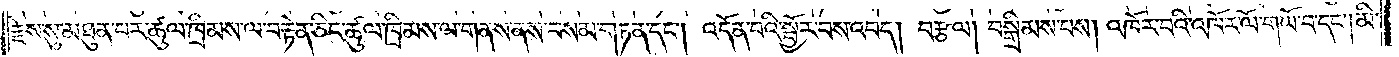རྗེས་སུ་མཐུན་པར་ཚུལ་ཁྲིམས་ལ་བརྟེན་ཅིང་ཚུལ་ཁྲིམས་ལ་བརྟེན་ཅིང་ཚུལ་ཁྲིམས་ལ་གནས་ནས་བསམ་གཏན་དང༌། འདོན་པའི་སྦྱོར་བས་འབད། བརྩལ། བསྒྲིམས་བས། འཁོར་བའི་འཁོར་ལོ་གཡོ་བ་དང༌། མི་
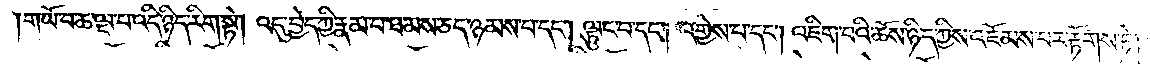གཡོ་བ་ཆ་ལྔ་པ་འདི་ཉིད་རིག་སྟེ། འདུ་བྱེད་ཀྱི་རྣམ་པ་ཐམས་ཅད་ཉམས་པ་དང༌། ལྟུང་བ་དང༌། འགྱེས་པ་དང༌། འཇིག་པའི་ཆོས་ཉིད་ཀྱིས་འཇོམས་པར་རྟོགས་ཏེ།
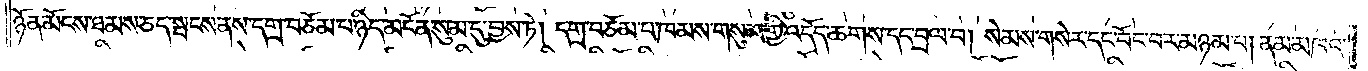ཉོན་མོངས་ཐམས་ཅད་སྤངས་ནས་དགྲ་བཅོམ་པ་ཉིད་མངོན་སུམ་དུ་བྱས་ཏེ། དགྲ་བཅོམ་པ་ཁམས་གསུམ་གྱི་འདོད་ཆགས་དང་བྲལ་བ། སེམས་གསེར་དང་བོང་བར་མཉམ་པ། ནམ་མཁའ་
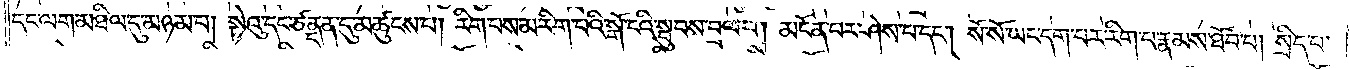དང་ལག་མཐིལ་དུ་མཉམ་པ། སྟེའུ་དང་ཙནྡན་དུ་མཚུངས་པ། རིག་པས་མ་རིག་པའི་སྒོ་ངའི་སྦུབས་བྲལ་བ། མངོན་པར་ཤེས་པ་དང༌། སོ་སོ་ཡང་དག་པར་རིག་པ་རྣམས་ཐོབ་པ། སྲིད་པ་
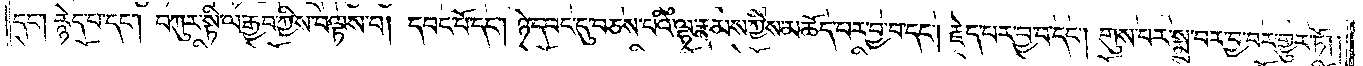དང༌། རྙེད་པ་དང༌། བཀུར་སྟི་ལ་རྒྱབ་ཀྱིས་བལྟས་པ། དབང་པོ་དང༌། ཉེ་དབང་དུ་བཅས་པའི་ལྷ་རྣམས་ཀྱིས་མཆོད་པར་བྱ་བ་དང༌། རྗེད་པར་བྱ་བ་དང༌། གུས་པར་སྨྲ་བར་བྱ་བར་གྱུར་ཏོ། །
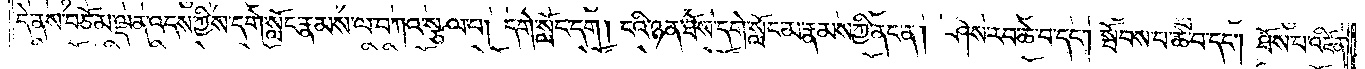དེ་ནས་བཅོམ་ལྡན་འདས་ཀྱིས་དགེ་སློང་རྣམས་ལ་བཀའ་སྩལ་པ། དགེ་སློང་དག། ངའི་ཉན་ཐོས་དགེ་སློང་མ་རྣམས་ཀྱི་ནང་ན། ཤེས་རབ་ཆེ་བ་དང༌། སྤོབས་པ་ཆེ་བ་དང༌། ཐོས་པ་འཛིན་
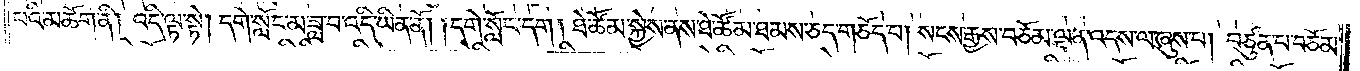པའི་མཆོག་ནི། འདི་ལྟ་སྟེ། དགེ་སློང་མ་ཟླ་བ་འདི་ཡིན་ནོ། །དགེ་སློང་དག། ཐེ་ཚོམ་སྐྱེས་ནས་ཐེ་ཚོམ་ཐམས་ཅད་གཅོད་པ། སངས་རྒྱས་བཅོམ་ལྡན་འདས་ལ་ཞུས་པ། བཙུན་པ་བཅོམ་
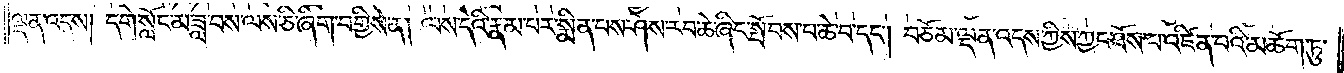ལྡན་འདས། དགེ་སློང་མ་ཟླ་བས་ལས་ཅི་ཞིག་བགྱིས་ན། ལས་དེའི་རྣམ་པར་སྨིན་པས་ཤེས་རབ་ཆེ་ཞིང་སྤོབས་བ་ཆེ་བ་དང༌། བཅོམ་ལྡན་འདས་ཀྱིས་ཀྱང་ཐོས་པ་འཛིན་པའི་མཆོག་ཏུ་
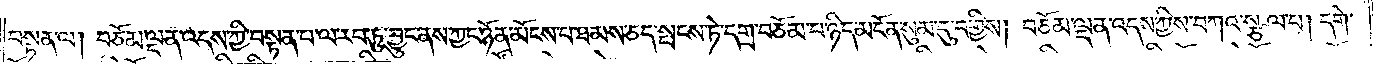བསྟན་ལ། བཅོམ་ལྡན་འདས་ཀྱི་བསྟན་པ་ལ་རབ་ཏུ་བྱུང་ནས་ཀྱང་ཉོན་མོངས་པ་ཐམས་ཅད་སྤངས་ཏེ་དགྲ་བཅོམ་པ་ཉིད་མངོན་སུམ་དུ་བགྱིས། བཅོམ་ལྡན་འདས་ཀྱིས་བཀའ་སྩལ་པ། དགེ་
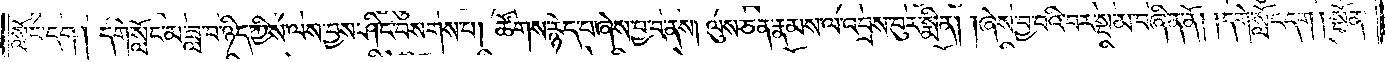སློང་དག། དགེ་སློང་མ་ཟླ་བ་ཉིད་ཀྱིས་ལས་བྱས་ཤིང་བསགས་པ། ཚོགས་རྙེད་པ་ཞེས་བྱ་བ་ནས། ལུས་ཅན་རྣམས་ལ་འབྲས་བུར་སྨིན། །ཞེས་བྱ་བའི་བར་སྔ་མ་བཞིན་ནོ། །དགེ་སློང་དག། སྔོན་
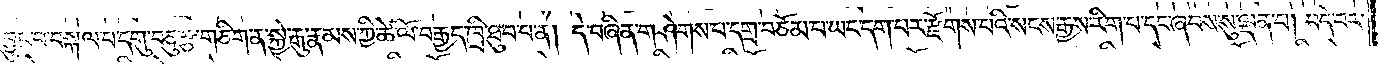བྱུང་བ་བསྐལ་པ་དགུ་བཅུ་རྩ་གཅིག་ན་སྐྱེ་རྒུ་རྣམས་ཀྱི་ཚེ་ལོ་བརྒྱད་ཁྲི་ཐུབ་པ་ན། དེ་བཞིན་གཤེགས་པ་དགྲ་བཅོམ་པ་ཡང་དག་པར་རྫོགས་པའི་སངས་རྒྱས་རིག་པ་དང་ཞབས་སུ་ལྡན་པ། བདེ་བར་
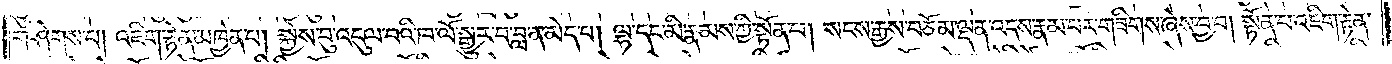གཤེགས་པ། འཇིག་རྟེན་མཁྱེན་པ། སྐྱེས་བུ་འདུལ་བའི་ཁ་ལོ་སྒྱུར་བ་བླ་ན་མེད་པ། ལྷ་དང་མི་རྣམས་ཀྱི་སྟོན་པ། སངས་རྒྱས་བཅོམ་ལྡན་འདས་རྣམ་པར་གཟིགས་ཞེས་བྱ་བ། སྟོན་པ་འཇིག་རྟེན་
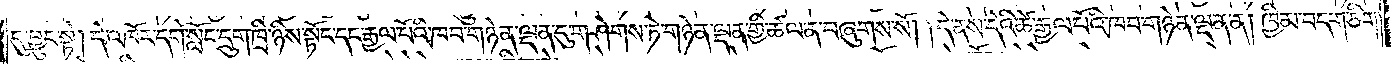དུ་བྱུང་སྟེ། དེ་འཁོར་དགེ་སློང་དྲུག་ཁྲི་ཉིས་སྟོང་དང་རྒྱལ་པོའི་ཁབ་གཉེན་ལྡན་དུ་གཤེགས་ཏེ་གཉེན་ལྡན་གྱི་ཚལ་ན་བཞུགས་སོ། །དེ་ནས་དེའི་ཚེ་རྒྱལ་པོའི་ཁབ་གཉེན་ལྡན་ན། ཁྱིམ་བདག་ཅིག་
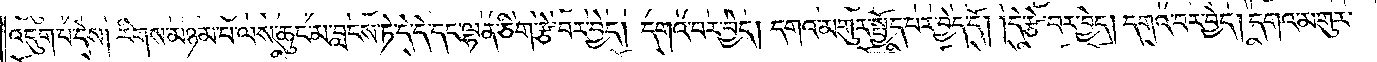འདུག་པ་དེས། རིགས་མཉམ་པ་ལས་ཆུང་མ་བླངས་ཏེ་དེ་དེ་དང་ལྷན་ཅིག་རྩེ་བར་བྱེད། དགའ་བར་བྱེད། དགའ་མགུར་སྤྱོད་པར་བྱེད་དོ། །དེ་རྩེ་བར་བྱེད། དགའ་བར་བྱེད། དགའ་མགུར་
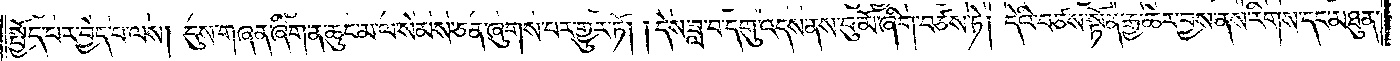སྤྱོད་པར་བྱེད་པ་ལས། དུས་གཞན་ཞིག་ན་ཆུང་མ་ལ་སེམས་ཅན་ཞུགས་པར་གྱུར་ཏོ། །དེས་ཟླ་བ་དགུ་འདས་ནས་བུ་མོ་ཞིག་བཙས་ཏེ། དེའི་བཙས་སྟོན་རྒྱ་ཆེར་བྱས་ནས་རིགས་དང་མཐུན་
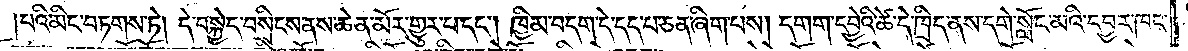པའི་མིང་བཏགས་ཏེ། དེ་བསྐྱེད་བསྲིངས་ནས་ཆེན་མོར་གྱུར་པ་དང༌། ཁྱིམ་བདག་དེ་དད་པ་ཅན་ཞིག་པས། དགག་དབྱེའི་ཚེ་དེ་ཁྲིད་ནས་དགེ་སློང་མའི་དབྱར་ཁང་
